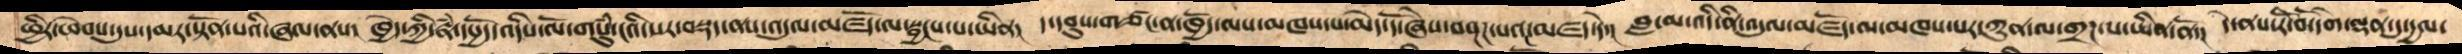ཕྱིར་ཕེབས་དུས་དམར་སྟོན་པའི་ཞལ་ནས།  ཁྱོད་ཀྱི་རྣཾ་དཔྱོད་འདིས་ལོ་གསུཾ་ངའི་སར་བསྡད་ནས་འདུལ་མཛོད་ལ་སྦྱངས་པ་ཡིན།  ད་དབུས་གཙང་ན་ཁྱོད་ལས་མཁས་པ་མེད་དོ་ཞེས་བསྔཌ་པའང་མཛད་དེ།  བླ་མ་འདི་ནི་འདུལ་མཛོད་ལ་མཁས་པར་ཀུན་ལ་གྲཌ་པ་ཡིན་ནོ།  དེ་ནས་རི་བོ་དགེ་ལྡན་དུ་དྱལ་
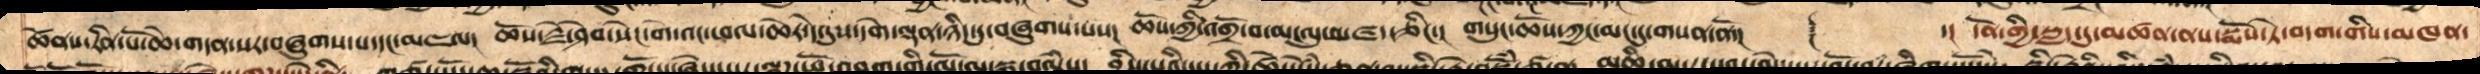ཚེནས་རིན་པོ་ཆེ་གདན་སར་བཞུགས་པ་དང་མཇལ། ཆོས་རྗེ་ཤེབ་སེང་གེ་འང་ཕལ་ཆེར་དེ་དུས་དགེ་ལྡན་ཉིད་དུ་བཞུགས་པས།  ཆོས་ཀྱི་འགྲོ་བ་མང་དུ་མཛད་ཅིང་།  གསུང་ཆོས་ཀྱང་མང་དུ་གསན་ནོ་།  ༈  ་།  དོན་གྱི་སླད་དུ་མཚན་ནས་སྨོས་ཏེ་བདག་གིས་མཁན་
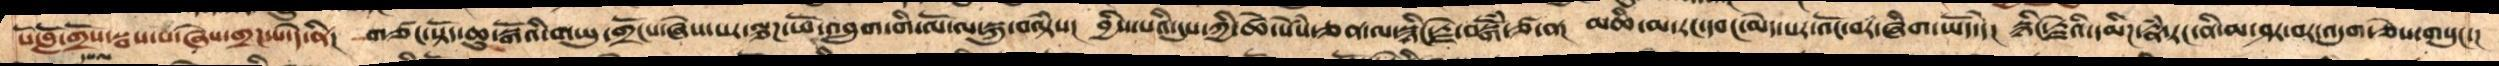པོ་བློ་གྲོས་སྦས་པ་ཞེས་གྲཌ་པ་དེ་ནི།  གཙང་སྟོད་ཆུ་སྒོའི་གཡུ་གྲོངས་ཞེས་པར་ལྕཌ་ཕོ་འབྲུག་གི་ལོ་ལ་སྐུ་བལྟཾས།  བྱིས་པའི་དུས་ཀྱི་ཚེ་སེཾས་ཅན་ལ་སྙིང་རྗེ་བསྒོཾ་ཙ་ན།  མཆི་མ་རང་དབང་མེད་པར་འོང་བར་ཞིག་ཡོད་དེ།  སྙིང་རྗེའི་དམིཌ་རྣཾ་རང་ནི་མ་ཤར་བར་འདུག་ཅེས་གསུང་།
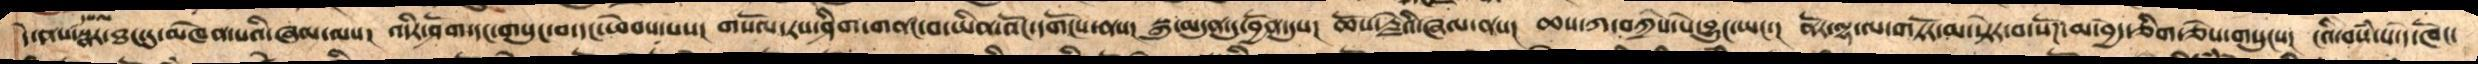དེ་ནས་དཔལ་སྣར་ཐང་དུ་མཁེན་པའི་ཞལ་ལས།  འདིར་ཤོག་དང་གསུང་བ་དང་ཕེབས་པས།  གསོལ་རས་ཤིག་གནང་བ་ཡིན་འོང་དགོངས་ནས།  སྐུ་མདུན་དུ་བྱོན་དུས།  ཆོས་རྗེའི་ཞལ་ནས།  ཆས་ཀ་བཀྲིས་པོ་བྱུང་ཡང་།  ནོར་ལྷ་ལ་གཏོར་མ་སྟེར་བ་སོཌ་མ་བྱད་ཅིག་ཅེས་གསུངས།  ངའི་བསཾ་པ་དེ་ཁོང་
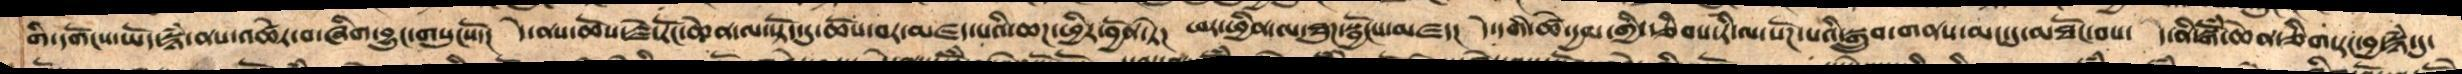གི་དགོངས་ཡོད་སྙཾ་ནས་འཚེར་བ་ཞིག་བྱང་གསུངསོ་།  དེ་ནས་ཆོས་རྗེ་རོང་ཆེན་ལ་སྟོད་དུ་ཆོས་བར་མཛད་པའི་ཆཌ་ཕྱིར་བྱོན་ཏེ།  ཕར་ཕྱིན་ལ་ཐུཌ་སྦྱོངས་བཛད།  དེ་དགི་ཚེ་དྱལ་གྱི་རྩིབས་རི་ལ་སོཌ་པའི་སྒྲུབ་གནས་མང་དུ་མཐོང་བས་ ད་ནི་སྒོཾ་ཆེན་ཅིག་རང་བྱ་སྙཾ་དུ་
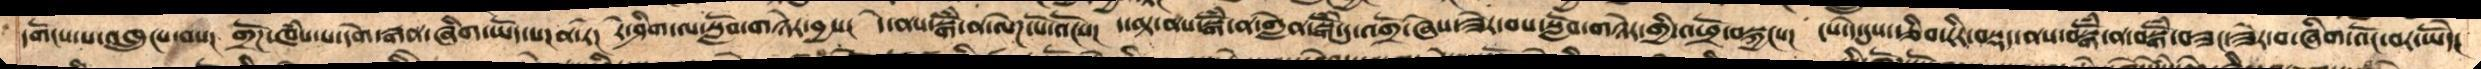དགོངས་པ་འཁྲུངས་བས།  གྲོཌ་ཁཾས་པ་དགེ་རྒན་ཞིག་ཡོད་པ་ན་རེ།  རེ་ཤིག་ལ་སློབ་གཉེར་བྱས།  དེ་ནས་སྒོཾ་ན་ལེཌ་པོ་འོངས།  ད་ལྟ་ནས་སྒོཾ་ན་གླེན་སྒོཾ་དུ་འགྲོ་ཞེས་ཟེར་བས་སློབ་གཉེར་གྱི་འཕྲོ་བསྐྱངས།  ངས་དེ་དུས་ཙིབ་རིརབསྡད་ནས་བསྒོཾ་ན་བསྒོཾ་བཟང་ཟེར་བ་ཞིག་འོང་བར་ཡོདེ།
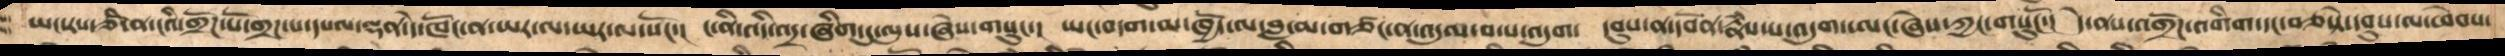ཡང་རས་ཙཾ་ན་ངའི་གྲོཌ་པོ་གྲཌ་པ་དཔལ་ལྡན་དེ་ཁོང་ན་ཡར་ལ་ཡར་ལ་སོང་།  ང་ནི་འདི་འདྲ་ཞིག་དུ་ལུས་ཞེས་གསུང་།  ཡང་བདག་མ་ཁྱོད་ལ་བླ་མ་གཙང་ན་འདུལ་བ་པ་འདུག་  དབུས་ན་དབོན་རྣཾས་པ་འདུག་ཨང་ཞེས་ཀྱང་གསུངོ་།  དེ་ནས་འགྲོཌ་འགིག་དང་བཅསྟེ་དབུས་ལ་ཕེབས་
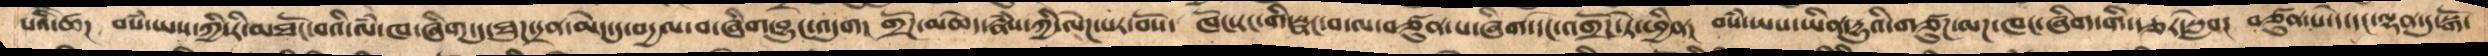པའི་ཚེ།  བསཾ་ཡས་ཀྱི་རི་མཐོང་བའི་ལཾ་ཁ་ཞིག་དུ་ཐུཌ་དྲན་མེད་དུ་བདྱལ་བ་ཞིག་བྱུང་འདུག།  གྲོཌ་མཆེད་རྣཾས་ཀྱི་ལེཌ་པར་བོས་  ཁོང་རང་གི་སྣང་བ་ལ་བཙུན་པ་ཞིག་དང་འགྲོཌ་ཏེ་ཕྱིན།  བསཾ་ཡས་ཡིན་དྱུའི་གཙུཌ་ལཌ་ཁང་ཞིག་གི་རྩར་སླེབ།  བཙུན་པ་དེ་དང་ལྷན་དུ་སྒོ་
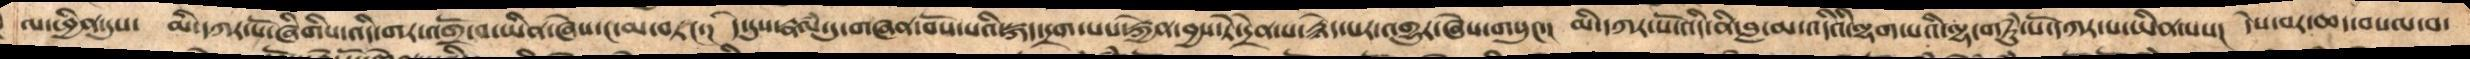ལ་ཕྱིན་དུས་  མི་དཀར་པོ་ཞིགིས་འདི་གར་འགྲོ་བ་ཡིན་ཞེས་ང་མ་གཏང་།  དེ་དུས་རྣལཾ་དུ་གཞན་བོས་པའི་སྐད་གྲག་པས་རྐྱེན་བྱས་ཏེ་དྲེན་པ་རྙེད་པར་གྱུར་ཞེས་གསུང་།  མི་དཀར་པོ་འདི་ནི་བླ་མ་འདིའི་ལྷག་པའི་ལྷ་གཏུཾ་པོ་དཀར་པོ་ཡིན་པས།  དེས་བར་ཆད་བསལ་བ་
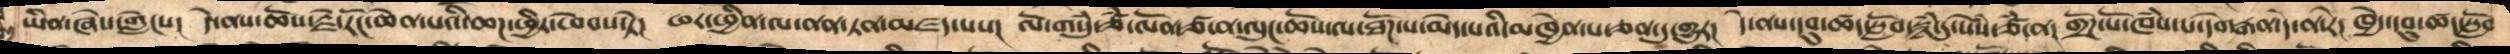ཡིན་ཞེས་གླེངས།  དེ་ནས་ཆོས་རྗེ་རོང་ཆེན་པའི་ཆཌ་ཕྱིར་ཕེབས་སྟེ།  ཕར་ཕྱིན་ལ་ནན་ཏན་མཛད་པས།  ལོ་གསུཾ་ཙཾ་ལོན་ཙ་ན་ལུང་ཆོས་ལ་ཐོཌ་པ་མེད་པའི་མཁྱེན་པ་ཅན་དུ་གྱུར།  དེ་ནས་དབུ་ཚད་སློབ་སྙཾ་དུ་སེཾས་ཙཾ་ན།  གྲོཌ་པོ་ཁཾས་པ་དགེརྒན་དེ་ན་རེ།  ཁྱེད་དབུ་ཚད་སློབ
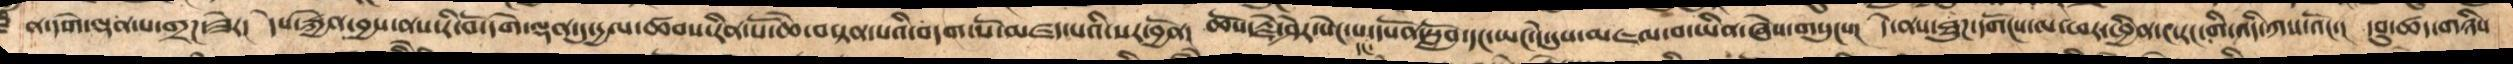ན་དགེ་ལྡན་པ་གྲཌ་ཟེར།  དེས་རྐྱེན་བྱས་ནས་རི་བོ་དགེ་ལྡན་དུ་དྱལ་ཚབས་རིན་པོ་ཆེ་བསྟན་པའི་བདག་པོ་མཛད་པའི་པར་བྱོན།  ཆོས་རྗེ་ཤེར་སེང་པ་དང་དཔོན་སློབ་དང་ཡང་དེ་དུས་མཇལ་བ་ཡིན་ཞེས་གསུངས།  དེ་ནས་ཐུཌ་དགོངས་ལ་ཕར་ཕྱིན་ང་རང་གི་འདི་ཀས་འོང་།  དབུ་ཚད་གཉིས་
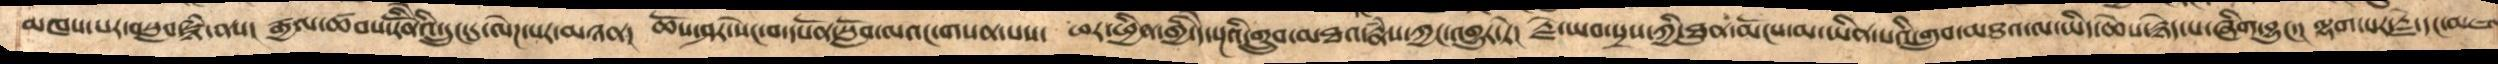མཁས་པར་བསླབ་སྙཾ་ནས།  རྒྱལ་ཚབ་རིནོེའི་དྲུང་དུ་ལེཌ་པར་མཉན། ཆོས་ཤར་སོང་བ་དཔོན་སློབ་ལའང་གསན་པས།  ཕར་ཕྱིན་གྱི་དེ་སྔའི་གྲུབ་མཐའ་རྣཾས་ཀྱང་འགྱུར་ཏེ།  རྗེ་ཡབ་སྲས་ཀྱི་ཐུན་མོངས་མ་ཡིན་པའི་གྲུབ་མཐའ་ལ་ཡིད་ཆེས་རྙེད་པ་ཞིག་བྱུང་།  ལྷག་པར་རྗེ་དང་མཇལ
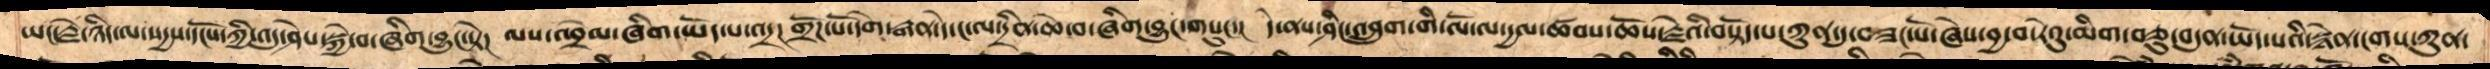ཡང་རྗེ་ཉིད་ལ་སདྱས་དངོས་ཀྱི་འདུ་ཤེས་སྐྱེ་བ་ཞིག་བྱུང་སྟེ།  ལས་འབྲེལ་ཞིག་ཡོད་པ་འདྲ།  གྲོཌ་པོ་དགེ་རྒན་དེ་ང་ལ་དྲིན་ཆེན་བ་ཞིག་བྱུང་གསུང་།  དེ་ནས་ཤིང་འབྲུག་གི་ལོ་ལ་དྱལ་ཚབས་ཆོས་རྗེའི་བསྟོད་པ་ཀུན་དུ་བཟང་པོ་ཞེས་བྱ་བ་རེའུ་མིག་བཅུ་བདུན་ཡོད་པའི་སྙེན་ངགས་ཀུན་
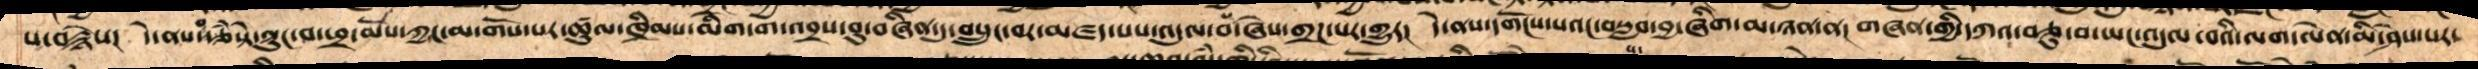པ་བརྙེས།  དེ་ནས་བརྩཾསྟེ་ལྟུང་བ་ཕྲ་མོས་ཀྱང་མ་གོས་པར་ཚུལ་ཁྲིམས་མིག་ག་འབྲས་བུ་བཞིན་དུ་བསྲུང་བར་མཛད་པས་འདུལ་བས་ཞེས་གྲཌ་པར་གྱུར།  དེ་ནས་དགོངས་པའང་བསླབ་བྱ་ཞིག་མ་ཉན་ན།  གཞན་གྱི་དཀའ་བཅུ་བ་ཡང་འདུལ་བའི་ལག་ལེན་མི་ཤེས་པར་
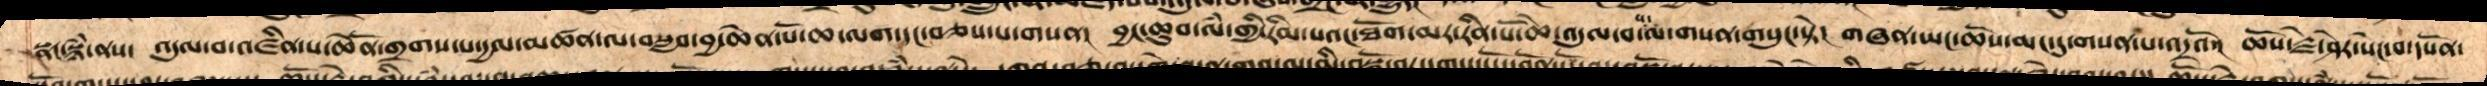སྣང་སྙཾ་ནས་  འདུལ་བ་འཛིན་པ་ཆེནོ་གྲགས་པ་དྱལ་མཚན་ལ་བསླབ་བྱ་ཆེན་པོ་ཆ་ལག་དང་བཅས་པ་གསན།  བྱང་ཆུབ་ལཾ་གྱི་རིམ་པའང་ཐོག་མར་རིན་པོ་ཆེ་འདུལ་བ་པ་ལ་གསན་གསུང་སྟེ།  གཞན་ཡང་ཆོས་མང་དུ་གསན་པ་འདྲའོ་།  ཆོས་རྗེ་ཤེར་སེང་བ་དཔོན་
